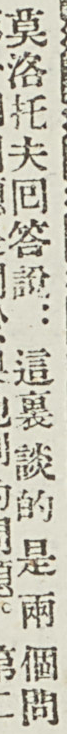莫洛托夫囘答說：這裏談的是兩個問
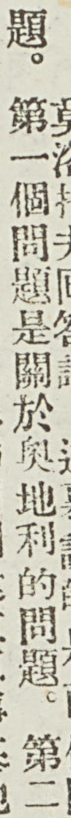題。第一個問題是關於奧地利的問題。第二
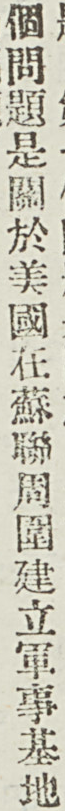個問題是關於美國在蘇聯周圍建立軍事基地
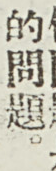的問題。
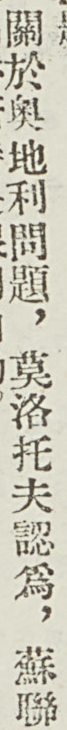關於奧地利問題，莫洛托夫認爲，蘇聯
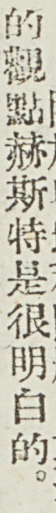的觀點赫斯特是很明白的。
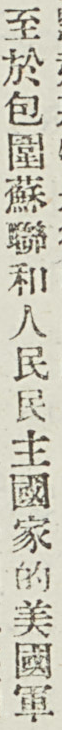至於包圍蘇聯和人民民主國家的美國軍
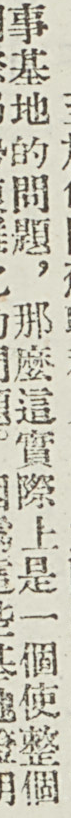事基地的問題，那麼這實際上是一個使整個
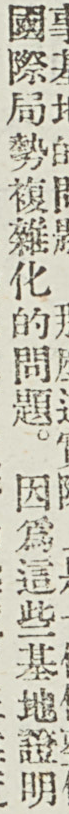國際局勢複雜化的問題。因爲這些基地證明
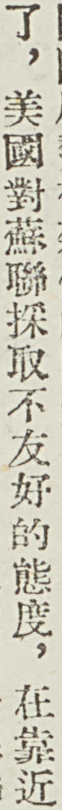了，美國對蘇聯採取不友好的態度，在靠近
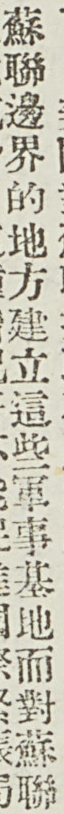蘇聯邊界的地方建立這些軍事基地而對蘇聯
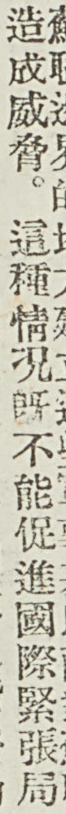造成威脅。這種情況既不能促進國際緊張局
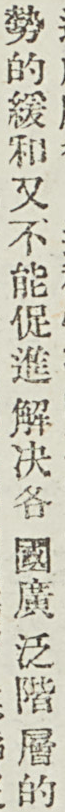勢的緩和又不能促進解決個國廣泛階層的
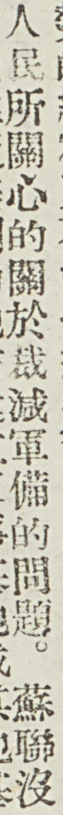人民所關心的關於裁減軍備的問題。蘇聯沒
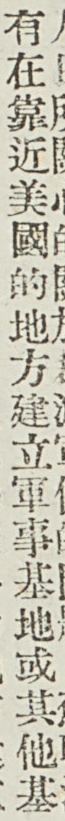有在靠近美國的地方建立軍事基地或其他基
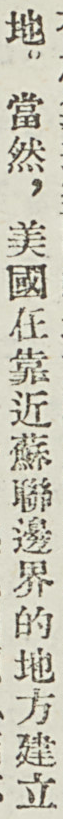地。當然，美國在靠近蘇聯邊界的地方建立
